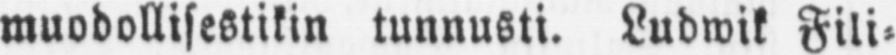muodollisestikin tunnusti. Ludwik Fili-
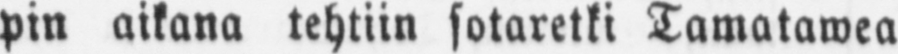pin aikana tehtiin sotaretki Tamatawea
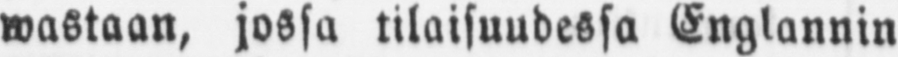wastaan, jossa tilaisuudessa Englannin
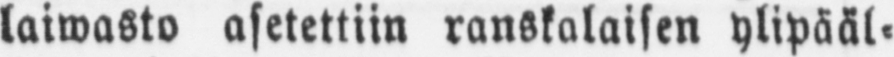laiwasto asetettiin ranskalaisen ylipääl-
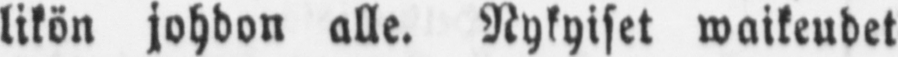likön johdon alle. Nykyiset waikeudet
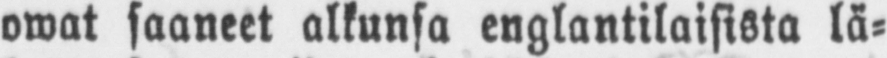owat saaneet alkunsa englantilaisista lä-
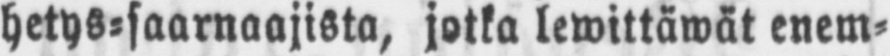hetys-saarnaajista, jotka lewittäwät enem-
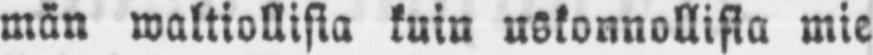män waltiollisia kuin uskonnollisia mie-
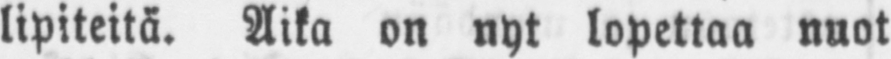lipiteitä. Aika on nyt lopettaa nuot
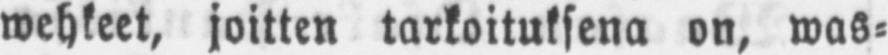wehkeet, joitten tarkoituksena on, was-
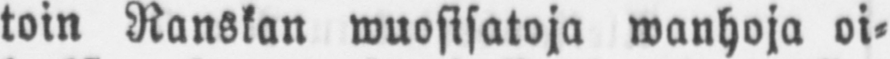toin Ranskan wuosisatoja wanhoja oi-
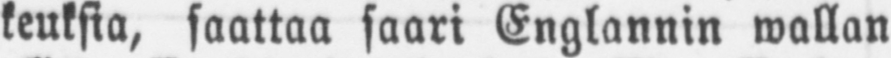keuksia, saattaa saari Englannin wallan
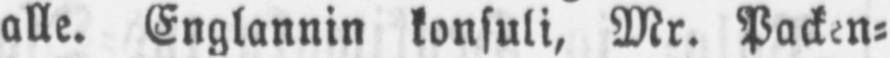alle. Englannin konsuli, Mr. Packen-
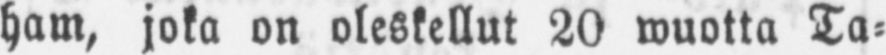ham, joka on oleskellut 20 wuotta Ta-
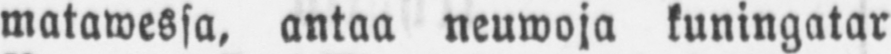matawessa, antaa neuwoja kuningatar
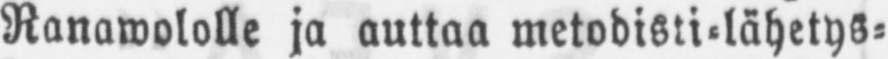Ranawololle ja auttaa metodisti-lähetys-
